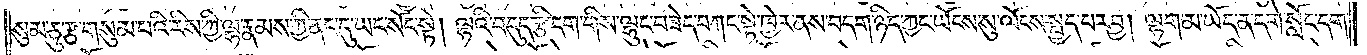སུམ་ཅུ་རྩ་གསུམ་པའི་རིས་ཀྱི་ལྷ་རྣམས་ཀྱི་ནང་དུ་ཡང་སོང་སྟེ། ལྷའི་བདུད་རྩི་དག་གིས་ལྷུང་བཟེད་བཀང་སྟེ་ཁྱེར་ནས་བདག་ཉིད་ཀྱང་ཡོངས་སུ་ལོངས་སྤྱད་པར་བྱ། ལྷག་མ་ཡོད་ན་དགེ་སློང་དག་
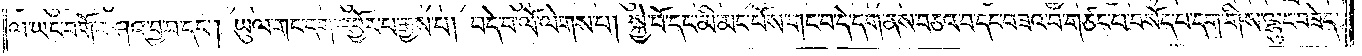ལ་ཡང་བགོ་བཤའ་བྱ་བ་དང༌། ཡུལ་གང་དག་འབྱོར་པ་རྒྱས་པ། བདེ་བ་ལོ་ལེགས་པ། སྐྱེ་བོ་དང་མི་མང་པོས་གང་བ་དེ་དག་ནས་བཅའ་བ་དང་བཟའ་བ་གཙང་བ་བསོད་པ་དག་གིས་ལྷུང་བཟེད་
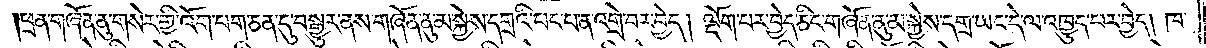ཕྲན་གཞོན་ནུ་གསེར་གྱི་འོག་པག་ཅན་དུ་བསྒྱུར་ནས་གཞོན་ནུ་མ་སྐྱེས་དགྲའི་པང་པ་ན་འགྲེ་བར་བྱེད། ལྡོག་པར་བྱེད་ཅིང་གཞོན་ནུ་མ་སྐྱེས་དགྲ་ཡང་དེ་ལ་འཁྱུད་པར་བྱེད། ཁ་
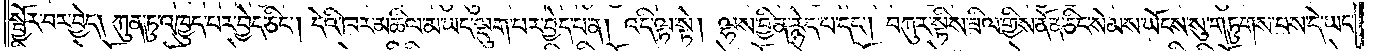སྦྱོར་བར་བྱེད། ཀུན་ཏུ་འཁྱུད་པར་བྱེད་ཅིང༌། དེའི་ཁར་མཆིལ་མ་ཡང་ལྡུག་པར་བྱེད་པ་ན། འདི་ལྟ་སྟེ། ལྷས་བྱིན་རྙེད་པ་དང༌། བཀུར་སྟིས་ཟིལ་གྱིས་ནོན་ཅིང་སེམས་ཡོངས་སུ་གཏུགས་པས་དེ་ཡང་
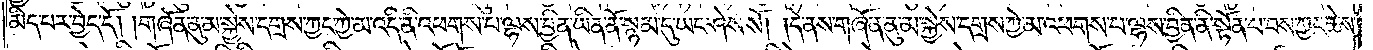མིད་པར་བྱེད་དོ། །གཞོན་ནུ་མ་སྐྱེས་དགྲས་ཀྱང་ཀྱེ་མ་འདི་ནི་འཕགས་པ་ལྷས་བྱིན་ཡིན་ནོ་སྙམ་དུ་ཡང་ཤེས་སོ། །དེ་ནས་གཞོན་ནུ་མ་སྐྱེས་དགྲས་ཀྱེ་མ་འཕགས་པ་ལྷས་བྱིན་ནི་སྟོན་པ་བས་ཀྱང་ཆེས་
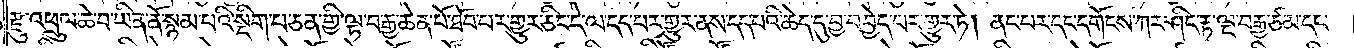རྫུ་འཕྲུལ་ཆེ་བ་ཡིན་ནོ་སྙམ་པའི་སྡིག་པ་ཅན་གྱི་ལྟ་བ་རྒྱ་ཆེན་པོ་ཐོབ་པར་གྱུར་ཅིང་དེ་ལ་དད་པར་གྱུར་ནས་དད་པའི་ཆེད་དུ་བྱ་བ་བྱེད་པར་གྱུར་ཏེ། ནང་པར་དང་དགོངས་ཀར་ཤིང་རྟ་ལྔ་བརྒྱ་ཙམ་དང་
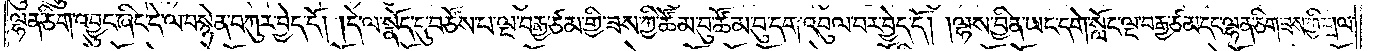ལྷན་ཅིག་འབྱུང་ཞིང་དེ་ལ་བསྙེན་བཀུར་བྱེད་དོ། །དེ་ལ་སྣོད་དུ་བཙོས་པ་ལྔ་བརྒྱ་ཙམ་གྱི་ཟས་ཀྱི་ཚོམ་བུ་ཚོམ་བུ་དག་འབུལ་བར་བྱེད་དོ། །ལྷས་བྱིན་ཡང་དགེ་སློང་ལྔ་བརྒྱ་ཙམ་དང་ལྷན་ཅིག་ཟས་ཀྱི་གྲལ་
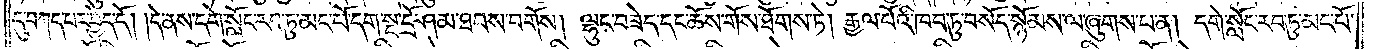དུ་བཀད་པར་བྱེད་དོ། །དེ་ནས་དགེ་སློང་རབ་ཏུ་མང་པོ་དག་སྔ་དྲོ་ཤམ་ཐབས་བགོས། ལྷུང་བཟེད་དང་ཆོས་གོས་ཐོགས་ཏེ། རྒྱལ་པོའི་ཁབ་ཏུ་བསོད་སྙོམས་ལ་ཞུགས་པ་ན། དགེ་སློང་རབ་ཏུ་མང་པོ་
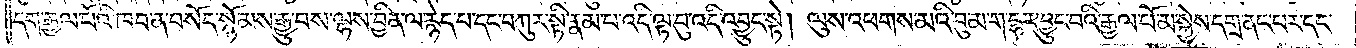དག་རྒྱལ་པོའི་ཁབ་ན་བསོད་སྙོམས་རྒྱུ་བས་ལྷས་བྱིན་ལ་རྙེད་པ་དང་བཀུར་སྟི་རྣམ་པ་འདི་ལྟ་བུ་འདི་འབྱུང་སྟེ། ལུས་འཕགས་མའི་བུ་མ་ག་དྷར་བྱུང་བའི་རྒྱལ་པོ་མ་སྐྱེས་དགྲ་ནང་པར་དང་
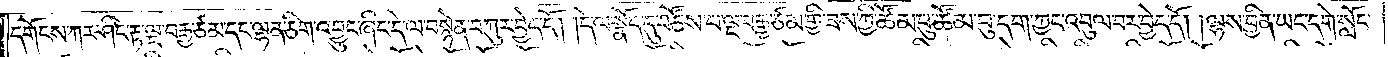དགོངས་ཀར་ཤིང་རྟ་ལྔ་བརྒྱ་ཙམ་དང་ལྷན་ཅིག་འབྱུང་ཞིང་དེ་ལ་བསྙེན་བཀུར་བྱེད་དོ། །དེ་ལ་སྣོད་དུ་བཙོས་པ་ལྔ་བརྒྱ་ཙམ་གྱི་ཟས་ཀྱི་ཚོམ་བུ་ཚོམ་བུ་དག་ཀྱང་འབུལ་བར་བྱེད་དོ། །ལྷས་བྱིན་ཡང་དགེ་སློང་
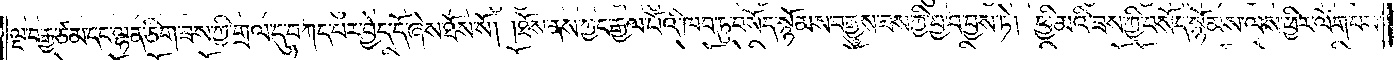ལྔ་བརྒྱ་ཙམ་དང་ལྷན་ཅིག་ཟས་ཀྱི་གྲལ་དུ་བཀད་པར་བྱེད་དོ་ཞེས་ཐོས་སོ། །ཐོས་ནས་ཀྱང་རྒྱལ་པོའི་ཁབ་ཏུ་བསོད་སྙོམས་བརྒྱུས་ཟས་ཀྱི་བྱ་བ་བྱས་ཏེ། ཕྱི་མའི་ཟས་ཀྱི་བསོད་སྙོམས་ལས་ཕྱིར་ལོག་པས་
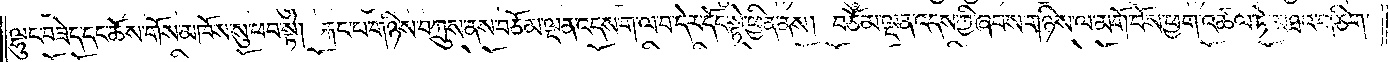ལྷུང་བཟེད་དང་ཆོས་གོས་མཁོས་སུ་ཕབ་སྟེ། རྐང་པ་གཉིས་བཀྲུས་ནས་བཅོམ་ལྡན་འདས་ག་ལ་བ་དེར་དོང་སྟེ་ཕྱིན་ནས། བཅོམ་ལྡན་འདས་ཀྱི་ཞབས་གཉིས་ལ་མགོ་བོས་ཕྱག་འཚལ་ཏེ་མཐའ་གཅིག་
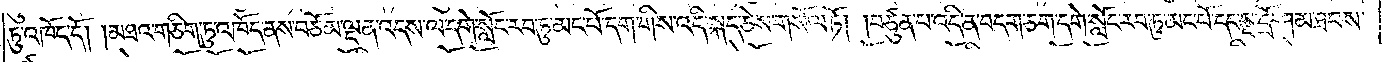ཏུ་འཁོད་དོ། །མཐའ་གཅིག་ཏུ་འཁོད་ནས་བཅོམ་ལྡན་འདས་ལ་དགེ་སློང་རབ་ཏུ་མང་པོ་དག་གིས་འདི་སྐད་ཅེས་གསོལ་ཏོ། །བཙུན་པ་འདི་ན་བདག་ཅག་དགེ་སློང་རབ་ཏུ་མང་པོ་དང་སྔ་དྲོ་ཤམ་ཐབས་
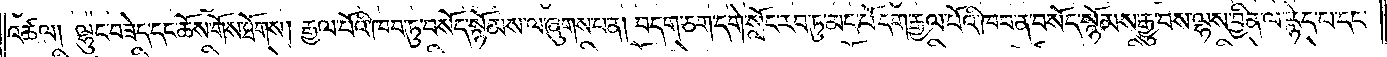འཚལ། ལྷུང་བཟེད་དང་ཆོས་གོས་ཐོགས། རྒྱལ་པོའི་ཁབ་ཏུ་བསོད་སྙོམས་ལ་ཞུགས་པ་ན། བདག་ཅག་དགེ་སློང་རབ་ཏུ་མང་པོ་དག་རྒྱལ་པོའི་ཁབ་ན་བསོད་སྙོམས་རྒྱུ་བས་ལྷས་བྱིན་ལ་རྙེད་པ་དང་
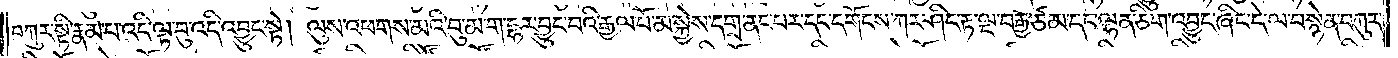བཀུར་སྟི་རྣམ་པ་འདི་ལྟ་བུ་འདི་འབྱུང་སྟེ། ལུས་འཕགས་མའི་བུ་མ་ག་དྷར་བྱུང་བའི་རྒྱལ་པོ་མ་སྐྱེས་དགྲ་ནང་པར་དང་དགོངས་ཀར་ཤིང་རྟ་ལྔ་བརྒྱ་ཙམ་དང་ལྷན་ཅིག་འབྱུང་ཞིང་དེ་ལ་བསྙེན་བཀུར་
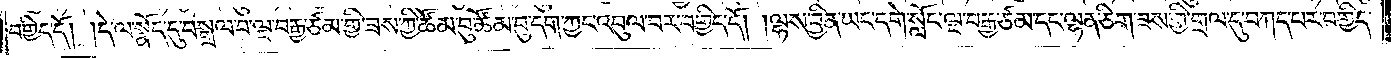བགྱིད་དོ། །དེ་ལ་སྣོད་དུ་བསྒྲལ་བ་ལྔ་བརྒྱ་ཙམ་གྱི་ཟས་ཀྱི་ཚོམ་བུ་ཚོམ་བུ་དག་ཀྱང་འབུལ་བར་བགྱིད་དོ། །ལྷས་བྱིན་ཡང་དགེ་སློང་ལྔ་བརྒྱ་ཙམ་དང་ལྷན་ཅིག་ཟས་ཀྱི་གྲལ་དུ་བཀད་པར་བགྱིད་
